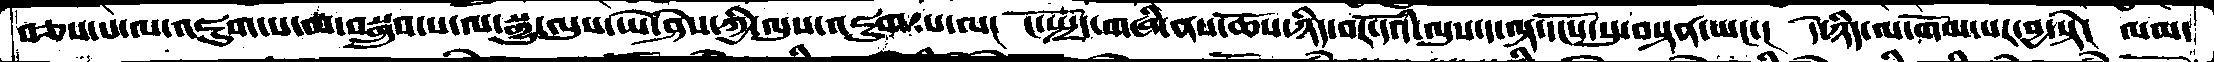བཅས་པ་ལ་འཇུག་པ་མ་བསྒྲུབ་པ་ལ་སྒྱུ་ལུས་ཡེ་ཤེས་ཀྱི་ལུས་འཇུག་པ་ལ་།  ངོ་སྤྲོད་གཞི་ནས་ཆོས་ཉིད་བར་དོའི་ལུས་ད་ལྟ་དངོས་སུ་བསྟན་ཡང་་།  དེ་ཉིད་ལ་གོམ་པར་བྱ་སྟེ།  ལམ་
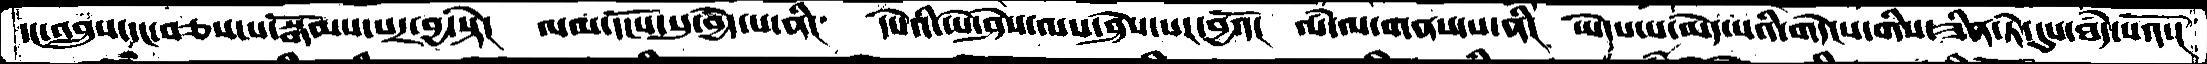དང་འབྲུས་དང་བཅས་པ་སྒོམས་པར་བྱ་སྟེ་།   ལམ་དངོས་སུ་བྱེད་པ་ནི།  དཔེའི་ཡེ་ཤེས་ལས་ཤེས་པར་བྱའོ།  ལཾ་ལ་གནས་པ་ནི།  ཡོདས་པ་མེད་པའི་གདེངས་གིས་ཟིན་ཏེ་དུས་ཐདཾ་པའོ་།
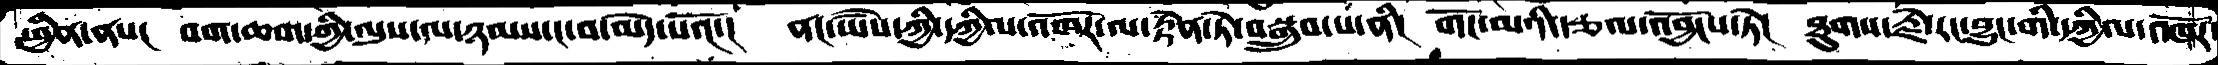ཕྱིན་ནས།  བག་ཆགས་ཀྱི་ལུས་ལ་ཉམས་ང་བ་མེད་པའོ་།  ནང་ཡཻས་ཀྱི་དཀྱིལ་འཁོར་ལ་རྟེན་ཏེ་བསྒྲུབ་པ་ནི།   གོང་མའི་རྩལ་འབྱོངས་ཏེ།  ཐུགས་རྗེ་རང་བྱུང་གི་དཀྱིལ་འཁོར་
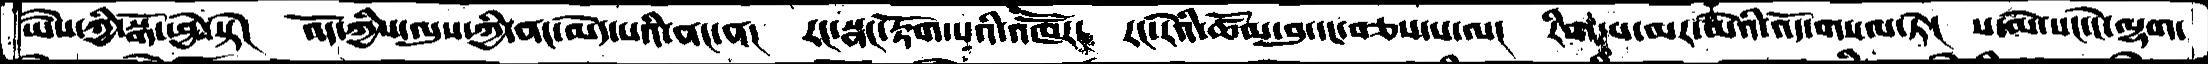ཡཻས་ཀྱི་སྒོ་ཕྱེ་སྟེ།  འོད་ཀྱིས་ལུས་ཀྱི་ནང་མེད་པའི་ནང་ན།  རང་སྣང་རྟོག་པའི་འཁཽར།  རང་རེའི་ཚོམ་བུ་དང་བཅས་པ་ལ།  རིག་པ་མར་མེའི་འོད་གསལ་ཏེ།  ས་མེ་སང་ངེ་ལྷག་
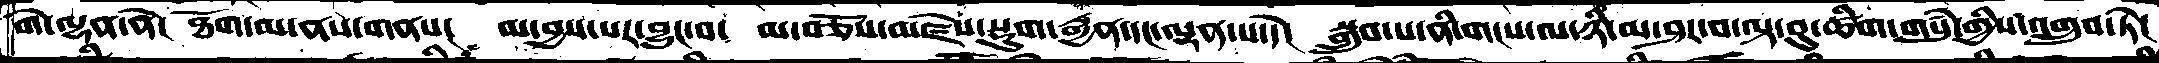གེ་ལྷན་ནེ།  ཐོག་མ་ནས་གནས།  མ་བྱས་པར་བྱུང་བ།  མ་བཅོས་མཛེས་སྡུག་རྒྱན་དང་ལྡན་པ་དེ།  སྒྲུབ་པ་ནི་གངས་ལ་ཉི་མ་ཤར་བ་ལྟ་བུ་ཚིག་གསུཾ་གྱིས་འགྲུབ་ཏེ།
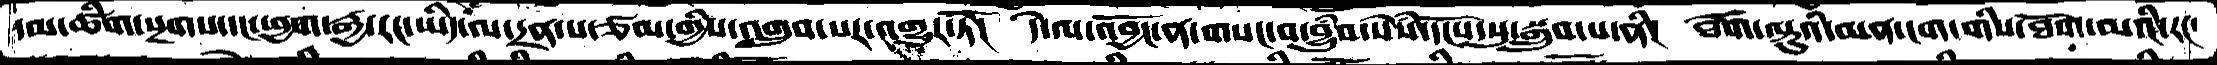དམ་ཚིག་སྔགས་དང་ཕྱག་རྒྱ་རང་ཡིད་ལ་དྲན་པ་ཙམ་གྱིས་འགྲུབ་པར་འགྱུར་ཏོ།   དེ་ལ་འབྱོང་ན་གསང་བ་བྱུཾབ་སེཾས་དངོས་སུ་སྒྲུབ་པ་ནི།  ཐོག་ལྟུའི་མན་ངག་གིས་ཐོག་མའི་རང་
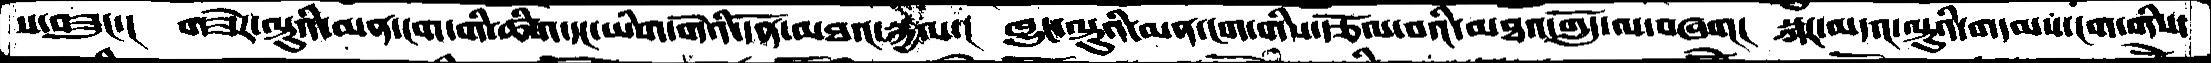ས་བཟུང་།   གཟེར་ལྟུའི་མན་ངག་གི་ཚིག་དང་ཡིག་གེའི་དོན་མཐའ་སྐྱལ་།  ཁྱུང་ལྟུའི་མན་ངག་གིས་རྩོལ་བའི་མཐའ་གློད་ལ་བཞག།   སྐར་མདའ་ལྟུའི་གདམས་ངག་གིས་
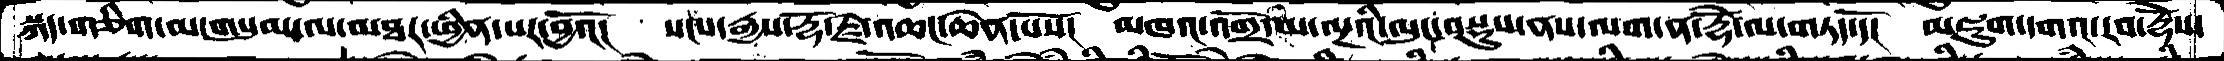སྐད་གཅིག་མ་གསུམ་ལ་མཐར་ཕྱིན་པར་བྱའོ།  སངས་རྒྱས་རྡོ་རྗེ་འཆང་ཆེན་པོས་།  མཁའ་འགྲོ་མ་ལྔའི་ལུང་བསྡུས་ནས་ལག་ན་རྡོེ་ལ་གཏད་དོ།  མཇུག་དགའ་རབ་རྡོེས་
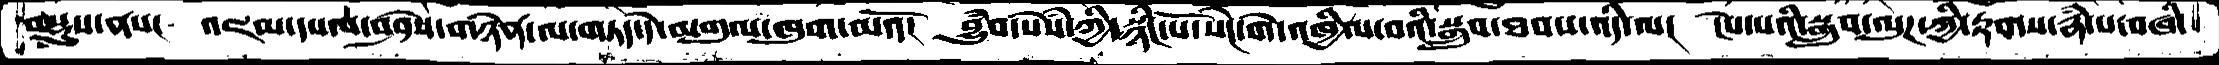བསྡུས་ནས།  འཇམ་དཔལ་བཤེས་གཉེན་ལ་གཏད་དེ་མགུལ་ཁུག་མའོ།  བྱུཾབ་སེཾས་ཀྱི་སྙིང་པོ་སེང་གེ་འཁྱིལ་བའི་སྒྲུབ་ཐབས་འདི་ལ།  ངེས་པའི་སྒྲུབ་ལུཌ་ཀྱི་རྟགས་རྣཾ་པ་བཞི་
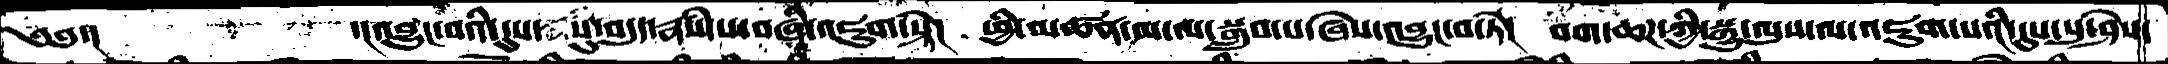༄༅་།      ་།འབྱུང་བའི་དུས་སུ་བདུད་རྣཾས་པ་བཞི་འཇུག་སྟེ།  ཕྱི་མཚན་མ་ལ་སྒྲུབ་པ་ཞེས་འབྱུང་བ་ཏེ།  བག་ཆཌ་ཀྱི་སྒྱུ་ལུས་ལ་འཇུག་པའི་དུས་སུ་ཤེས་
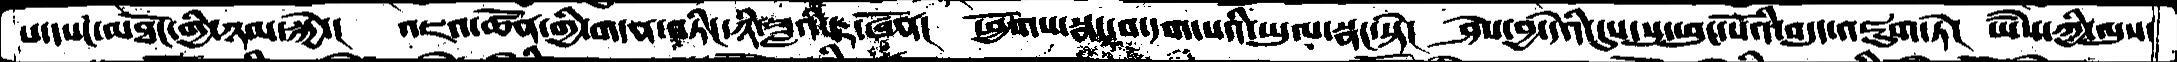པ་དཔང་མཐོང་གྱི་ཉམ་སྐྱེ་།  འཇའ་ཚོན་གྱི་གདན་བཏིང་ཉི་ཟླའི་རྟ་ཞོན།  ཕྱོགས་སྣང་བ་དག་པའི་ཡུལ་སྣང་སྟེ།  ཤེས་བྱ་དེའི་དུས་སུ་ཕུང་པོའི་བདུད་འཇུག་ཏེ།  ཡཻས་ཀྱི་ལུས་
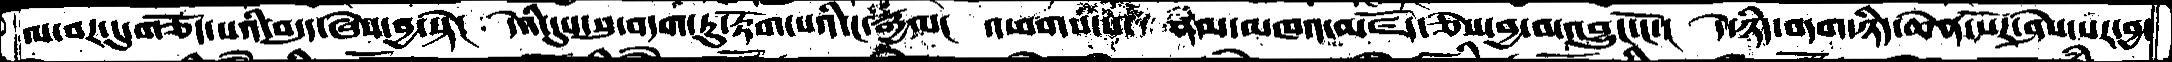ལ་བར་དུ་གཅོད་པའི་བདུད་ཞེས་བྱ་སྟེ།  དེའི་དུས་སུ་བདག་ཏུ་རྟོག་པའི་ང་རྒྱལ།  འཕགས་པ་    ནམ་མཁའ་མཛོད་ཅེས་བྱ་བ་འབྱུང་ངོ་།  དེ་ཉིད་བདག་ཉིད་ཆེན་པོར་ཤེས་པར་བྱ་
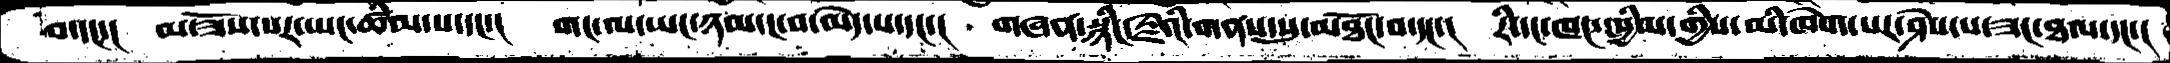བ་དང་མ་ཟོས་པར་ཡང་ཚིམ་པ་དང་།  གང་ལ་ཡང་ཉམ་ང་བ་མེད་པ་དང་།  གཞན་སྙིང་རྗེའི་གནས་སུ་མཐོང་བ་དང་།  རི་དང་ཁང་ཁྱིམ་གྱིས་མི་ཁེག་པར་ཤེས་པ་ཟང་ཐལ་དང་།
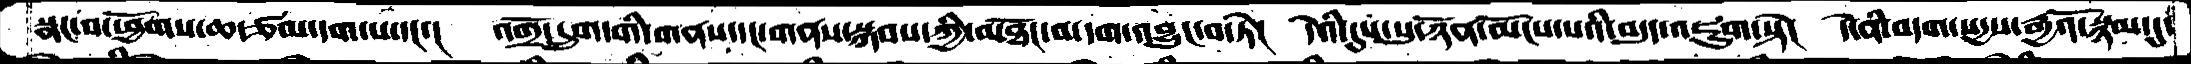སྣང་བ་ཕྱོགས་ཆ་ཙམ་དག་པ་དང་།   འགྲོ་དྲུག་གི་གནས་དང་གནས་སྐབས་ཀྱི་མཐོང་བ་དག་འབྱུང་བ་ཏེ།  དེའི་དུས་སུ་ཉོན་མོངས་པའི་བདུད་འཇུག་སྟེ།  དེ་ནི་བདག་སདྱས་རྒྱའོ་སྙམ་དུ་
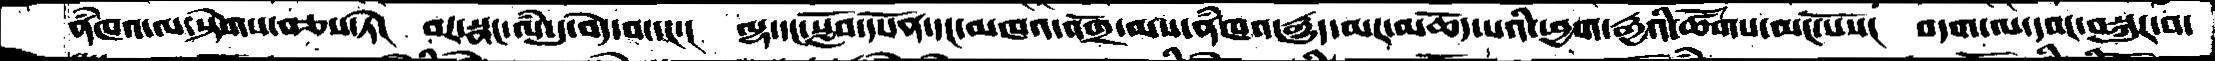ནྃཁའ་ལ་སྟེགས་བཅས་ཏེ།   བར་སྣང་ལཾ་དུ་བདེ་བ་དང་།   ལྷ་དང་སློབ་དཔོན་དང་མཁའ་འགྲོ་མས་ནཾཁའ་རྒྱུད་མར་མཆོད་པའི་ཕྱག་རྒྱའི་ཚོགས་མང་པོས།   བདག་ལ་དབང་བསྐུར་བ་
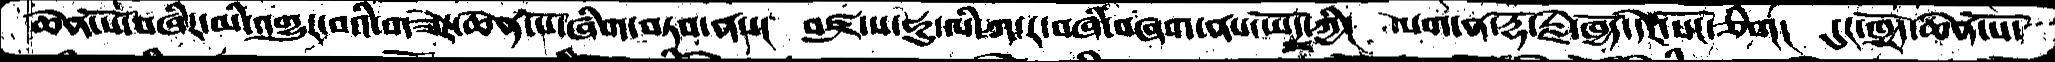ཆེན་པོ་བཞིར་མི་འགྱུར་བའི་གཟེར་ཆེན་པོ་ཞིག་བཏབ་ནས་།  བཛྲ་ས་ཧུ་ལི་ཀ་ར་བཞི་བཞག་ནས་ཡོད་ཀྱི།  ལག་ན་རྡོ་རྗེ་ཁྱོད་དེར་སོང་ཅིག།  དུར་ཁྲོད་ཆེན་པོ་
